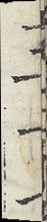文三十七
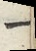一
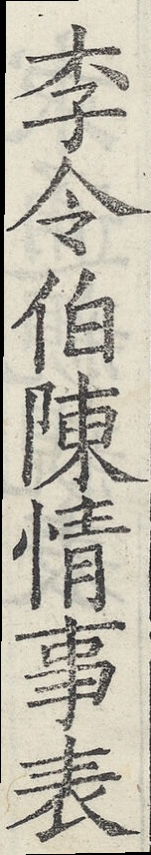李令伯陳情事表
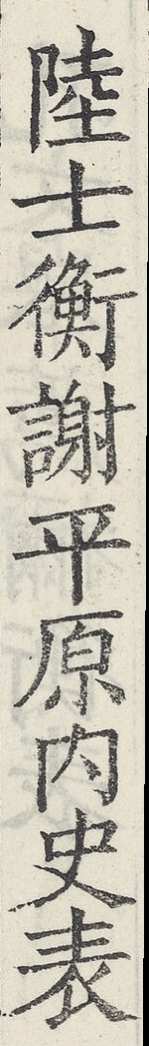陸士衡謝平原内史表
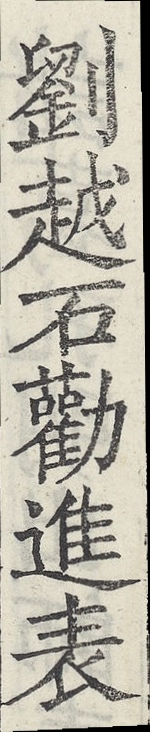劉越石勸進表
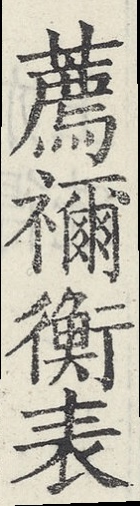薦禰衡表
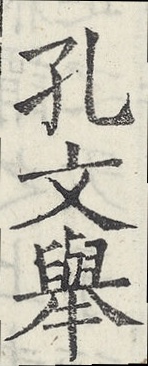孔文舉
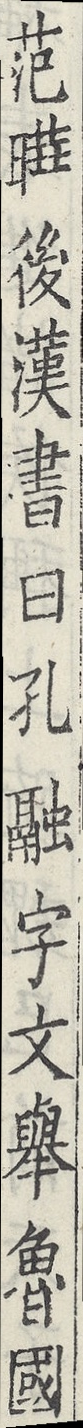范曄後漢書曰孔融字文舉魯國
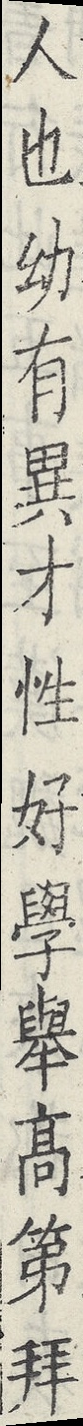人也幼有異才性好學舉高第拜
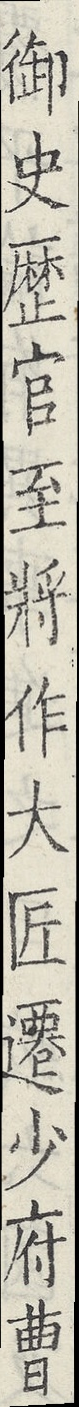御史歷官至將作大匠遷少府曹
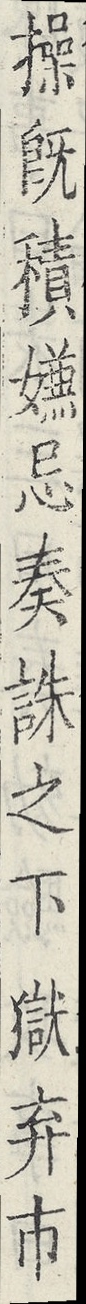操既積嫌忌奏誅之下獄弃市
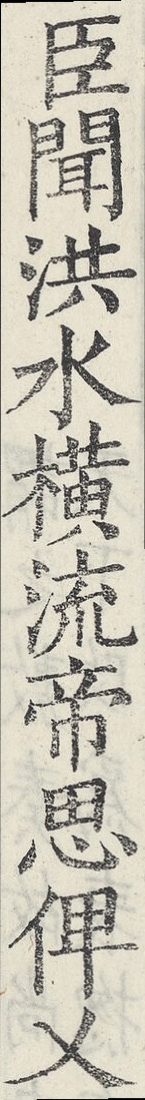臣聞洪水橫流帝思俾乂
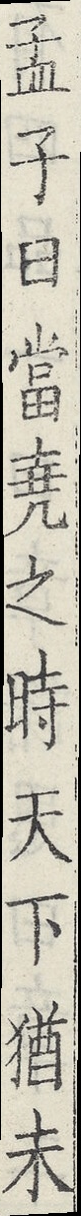孟子曰當堯之時天下猶未
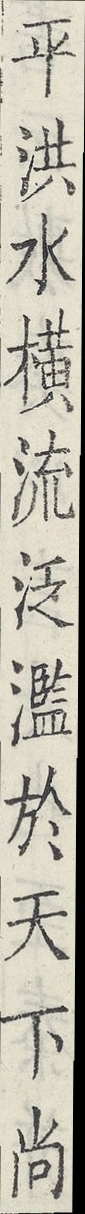平洪水橫流泛濫於天下尚
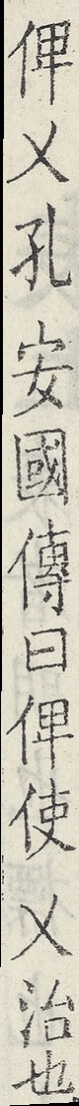俾乂孔安國傳曰俾使乂治也
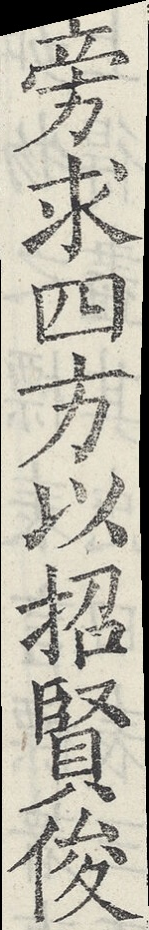旁求四方以招賢俊
